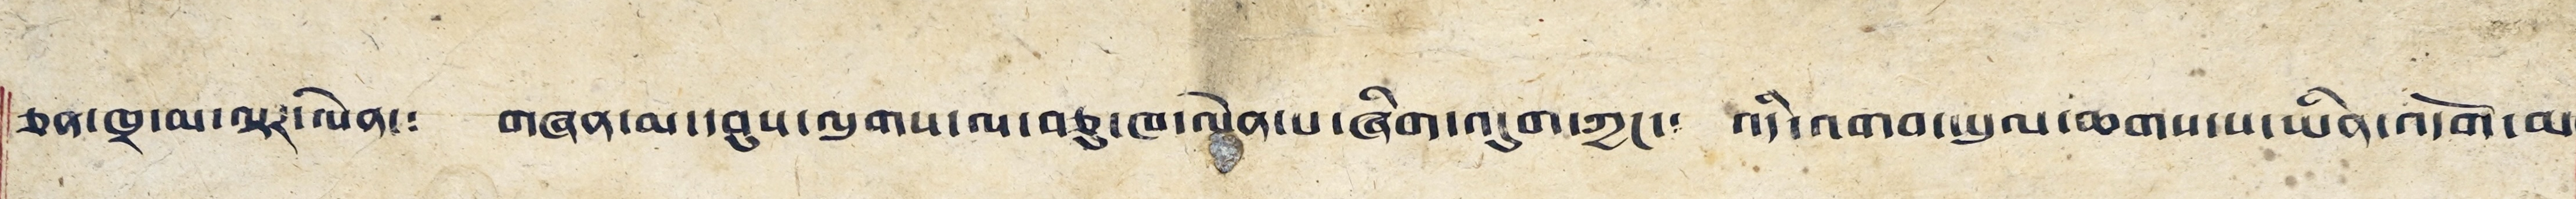ཅན་ཁྲ་མ་ལྟར་ལེན་༴ གཞན་མ་དབུས་ལུགས་ལ་བཅུ་ཁ་ལེན་པ་ཞིག་འདུག་ཀྱང་༴ འདི་འགབ་ཡུལ་ཆགས་པ་ཡིན་འདོག་མ་
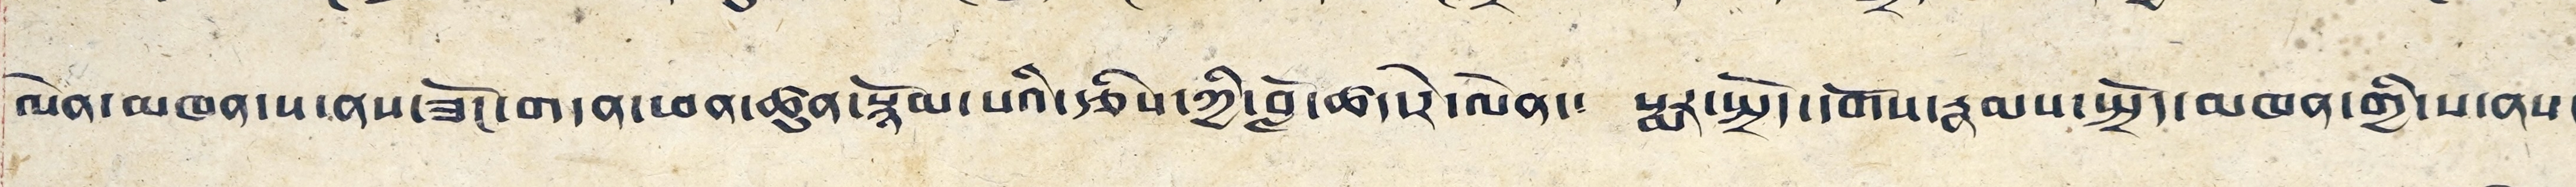ལེན་མཁན་པ་ནས་ཟོང་གདན་ཕན་ཚུན་སྙོམ་པའི་རྩིས་ཀྱི་བློ་ཚད་རེ་ལེན་༴ སྨར་སྤྲོད་དགོས་རྣམས་སྤྲོད་མཁན་གྱི་ས་ནས་
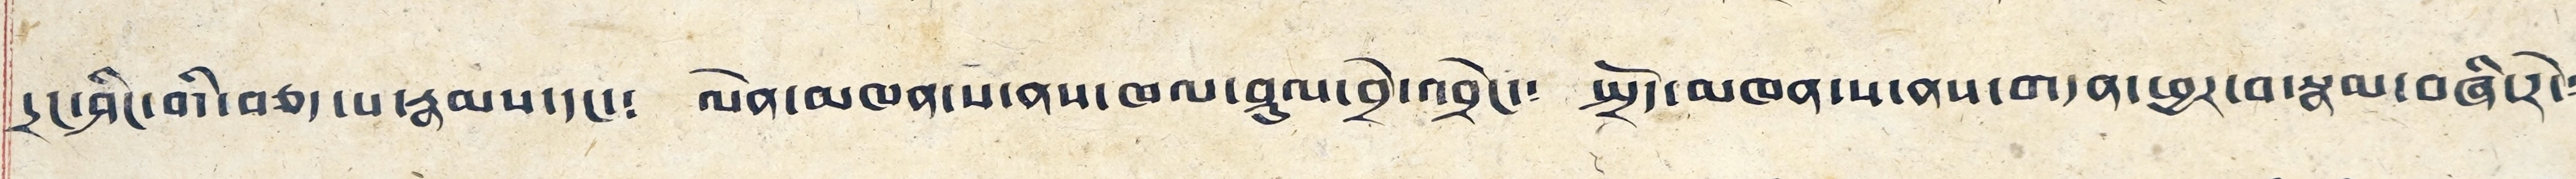དྲང་ཤིང་གི་བཅད་པ་རྣམས་དང་༴ ལེན་མཁན་པ་ནས་ཁལ་ཤུལ་བྲེ་འབྲེང་། སྤྲོད་མཁན་ས་ནས་གདན་ཕྱར་བ་རྣམ་བཞི་རེ་༴
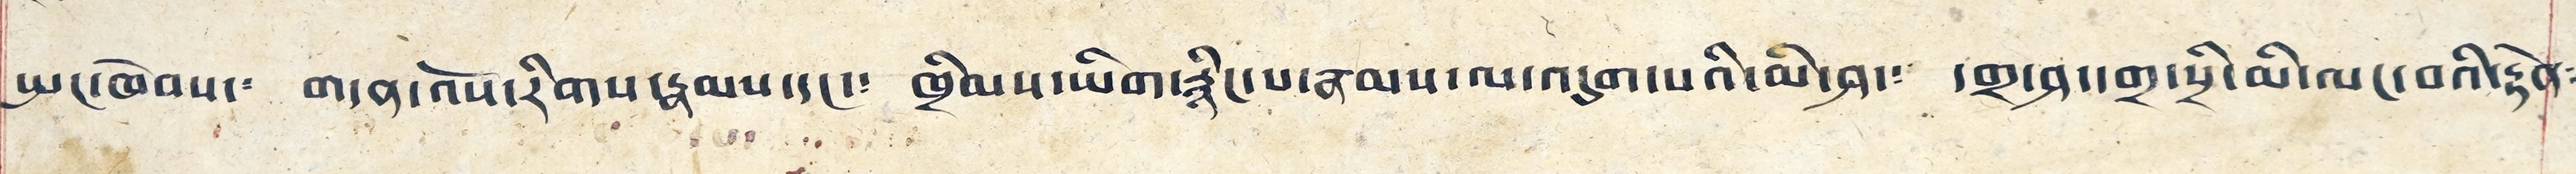སྤང་ཁེབས་༴ གདན་འོས་རིགས་རྣམས་དང་༴ ཁྲིམས་ཡིག་རྙིང་པ་རྣམས་ལ་འདུག་པའི་མི་ཤ་༴ དགྲ་ཤ་དགྲ་སྲི་མི་ལང་བའི་རྟེན༴
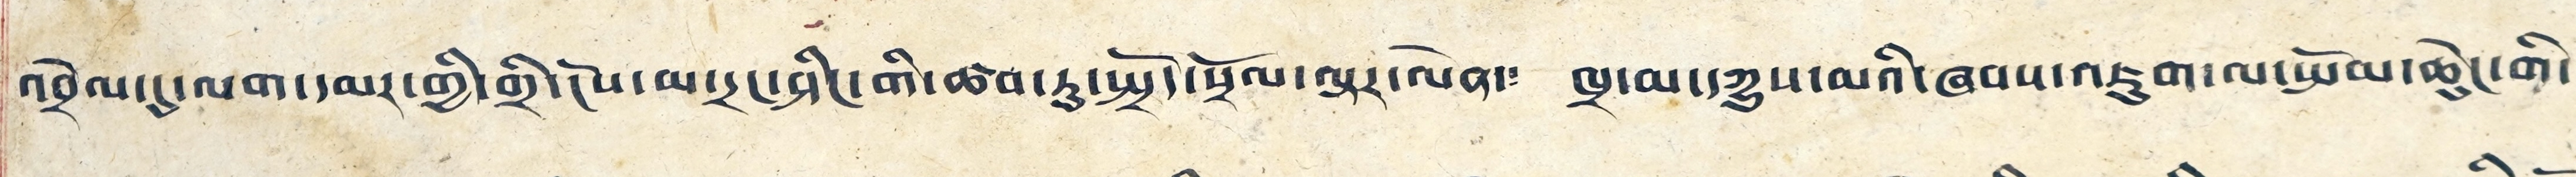འབྲེལ་དུ་ལག་དམར་གྱི་གྲི་ངོས་མ་དྲང་ཤིང་གི་ཚབ་ཏུ་སྤྲོད་སྲོལ་ལྟར་ལེན་༴ ཁྲ་མ་དཀྱུས་མའི་ཞབས་འཇུག་ལ་སྤོམ་ཆེུང་གི་
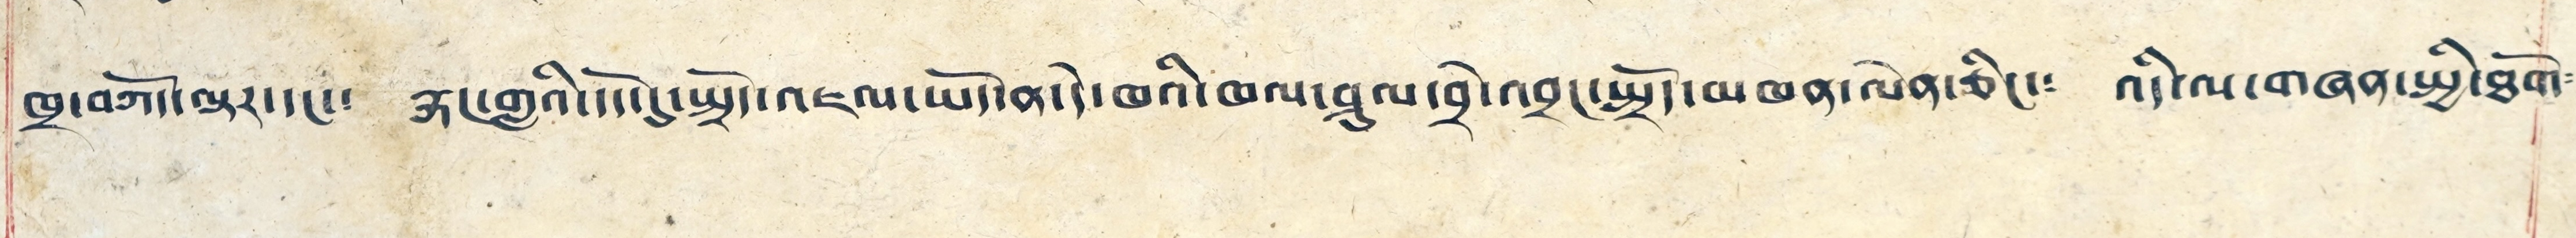ཁྲ་བཀོད་ལྟར་དང་༴ རྐང་གླའི་དོད་དུ་སྤྲོད་འཇལ་ཡོད་ན་དེ་ཁའི་ཁལ་ཤུལ་བྲེ་འབྲང་སྤྲོད་མཁན་ལེན་ཅིང་༴ འདི་ལ་གཞན་སྤྱི་ཐོག༴
